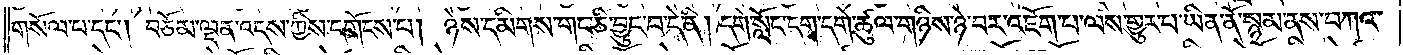གསོལ་པ་དང༌། བཅོམ་ལྡན་འདས་ཀྱིས་དགོངས་པ། ཉེས་དམིགས་གང་ཅི་བྱུང་བ་དེ་ནི། དགེ་སློང་དག་དགེ་ཚུལ་གཉིས་ཉེ་བར་འཇོག་པ་ལས་གྱུར་པ་ཡིན་ནོ་སྙམ་ནས་བཀའ་
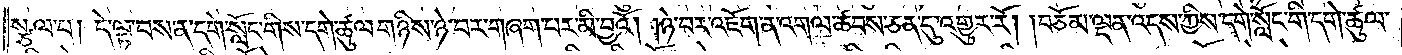སྩལ་པ། དེ་ལྟ་བས་ན་དགེ་སློང་གིས་དགེ་ཚུལ་གཉིས་ཉེ་བར་གཞག་པར་མི་བྱའོ། །ཉེ་བར་འཇོག་ན་འགལ་ཚབས་ཅན་དུ་འགྱུར་རོ། །བཅོམ་ལྡན་འདས་ཀྱིས་དགེ་སློང་གི་དགེ་ཚུལ་
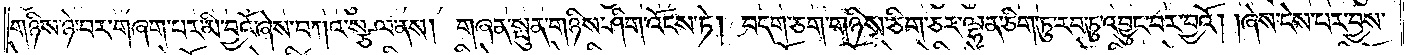གཉིས་ཉེ་བར་གཞག་པར་མི་བྱའོ་ཞེས་བཀའ་སྩལ་ནས། གཞན་སྤུན་གཉིས་ཤིག་འོངས་ཏེ། བདག་ཅག་གཉིས་ཅིག་ཅར་ལྷན་ཅིག་ཏུ་རབ་ཏུ་འབྱུང་བར་བྱའོ། །ཞེས་ངེས་པར་བྱས་
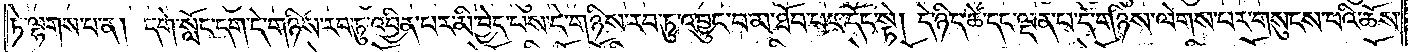ཏེ་ལྷགས་པ་ན། དགེ་སློང་དག་དེ་གཉིས་རབ་ཏུ་འབྱིན་པར་མི་བྱེད་པས་དེ་གཉིས་རབ་ཏུ་འབྱུང་བ་མ་ཐོབ་པར་དོང་སྟེ། དེ་ཉིད་ཚེ་དང་ལྡན་པ་དེ་གཉིས་ལེགས་པར་གསུངས་པའི་ཆོས་
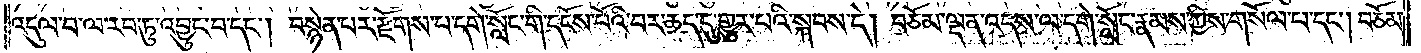འདུལ་བ་ལ་རབ་ཏུ་འབྱུང་བ་དང༌། བསྙེན་པར་རྫོགས་པ་དགེ་སློང་གི་དངོས་པོའི་བར་ཆད་དུ་གྱུར་པའི་སྐབས་དེ། བཅོམ་ལྡན་འདས་ལ་དགེ་སློང་རྣམས་ཀྱིས་གསོལ་པ་དང༌། བཅོམ་
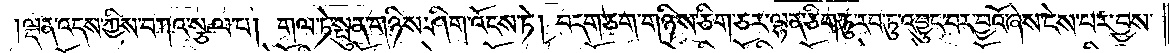ལྡན་འདས་ཀྱིས་བཀའ་སྩལ་པ། གལ་ཏེ་སྤུན་གཉིས་ཤིག་འོངས་ཏེ། བདག་ཅག་གཉིས་ཅིག་ཅར་ལྷན་ཅིག་ཏུ་རབ་ཏུ་འབྱུང་བར་བྱའོ་ཞེས་ངེས་པར་བྱས་
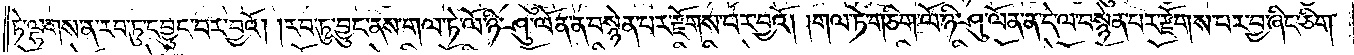ཏེ་ལྷགས་ན་རབ་ཏུ་དབྱུང་བར་བྱའོ། །རབ་ཏུ་བྱུང་ནས་གལ་ཏེ་ལོ་ཉི་ཤུ་ལོན་ན་བསྙེན་པར་རྫོགས་པར་བྱའོ། །གལ་ཏེ་གཅིག་ལོ་ཉི་ཤུ་ལོན་ན་དེ་ལ་བསྙེན་པར་རྫོགས་པར་བྱ་ཞིང་ཅིག་
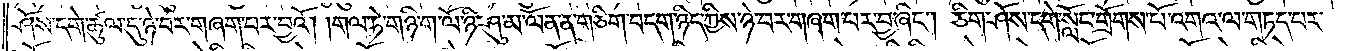ཤོས་དགེ་ཚུལ་དུ་ཉེ་བར་གཞག་པར་བྱའོ། །གལ་ཏེ་གཉི་ག་ལོ་ཉི་ཤུ་མ་ལོན་ན་གཅིག་བདག་ཉིད་ཀྱིས་ཉེ་བར་གཞག་པར་བྱ་ཞིང༌། ཅིག་ཤོས་དགེ་སློང་གྲོགས་པོ་འགའ་ལ་གཏད་པར་
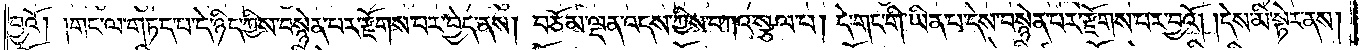བྱའོ། །གང་ལ་གཏད་པ་དེ་ཉིད་ཀྱིས་བསྙེན་པར་རྫོགས་པར་བྱེད་ནས། བཅོམ་ལྡན་འདས་ཀྱིས་བཀའ་སྩལ་པ། དེ་གང་གི་ཡིན་པ་དེས་བསྙེན་པར་རྫོགས་པར་བྱའོ། །དེས་མི་སྟེར་ནས།
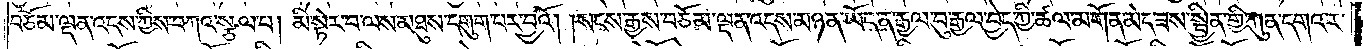བཅོམ་ལྡན་འདས་ཀྱིས་བཀའ་སྩལ་པ། མི་སྟེར་བ་ལས་མཐུས་དགུག་པར་བྱའོ། །སངས་རྒྱས་བཅོམ་ལྡན་འདས་མཉན་ཡོད་ན་རྒྱལ་བུ་རྒྱལ་བྱེད་ཀྱི་ཚལ་མགོན་མེད་ཟས་སྦྱིན་གྱི་ཀུན་དགའ་ར་
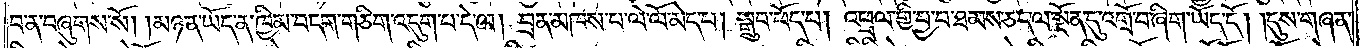བ་ན་བཞུགས་སོ། །མཉན་ཡོད་ན་ཁྱིམ་བདག་གཅིག་འདུག་པ་དེ་ལ། བྲན་མཁས་པ་ལེ་ལོ་མེད་པ། སྒྲུབ་ཕོད་པ། འཕྲལ་གྱི་བྱ་བ་ཐམས་ཅད་ལ་སྔོན་དུ་འགྲོ་བ་ཞིག་ཡོད་དོ། །དུས་གཞན་
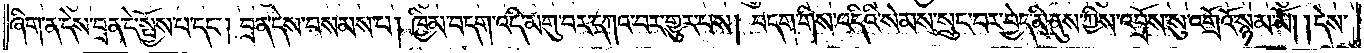ཞིག་ན་དེས་བྲན་དེ་སྤྱོས་པ་དང༌། བྲན་དེས་བསམས་པ། ཁྱིམ་བདག་འདི་མགུ་བར་དཀའ་བར་གྱུར་པས། བདག་གིས་འདིའི་སེམས་སྲུང་བར་བྱེད་མི་ནུས་ཀྱིས་འབྲོས་སུ་འགྲོའོ་སྙམ་མོ། །དེས་
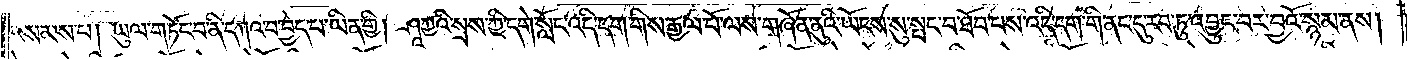བསམས་པ། ཡུལ་གཏོང་བ་ནི་དཀའ་བ་བྱེད་པ་ཡིན་གྱི། ཤཱཀྱའི་སྲས་ཀྱི་དགེ་སློང་འདི་དག་གིས་རྒྱལ་པོ་ལས་གཞོན་ནུའི་ཡོངས་སུ་སྤང་བ་ཐོབ་པས་འདི་དག་གི་ནང་དུ་རབ་ཏུ་འབྱུང་བར་བྱའོ་སྙམ་ནས།
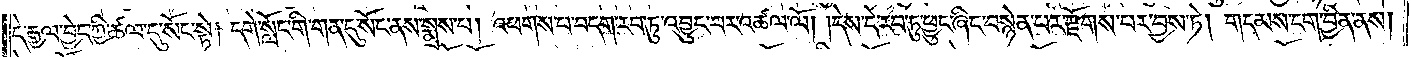དེ་རྒྱལ་བྱེད་ཀྱི་ཚལ་དུ་སོང་སྟེ། དགེ་སློང་གི་གན་དུ་སོང་ནས་སྨྲས་པ། འཕགས་པ་བདག་རབ་ཏུ་འབྱུང་བར་འཚལ་ལོ། །དེས་དེ་རབ་ཏུ་ཕྱུང་ཞིང་བསྙེན་པར་རྫོགས་པར་བྱས་ཏེ། གདམས་ངག་བྱིན་ནས།
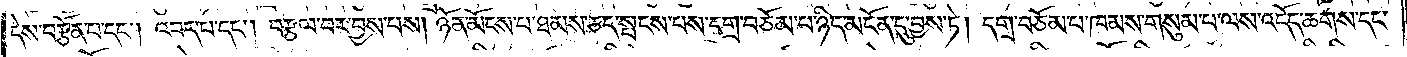དེས་བརྩོན་པ་དང༌། འབད་པ་དང༌། བརྩལ་བར་བྱས་པས། ཉོན་མོངས་པ་ཐམས་ཅད་སྤངས་པས་དགྲ་བཅོམ་པ་ཉིད་མངོན་དུ་བྱས་ཏེ། དགྲ་བཅོམ་པ་ཁམས་གསུམ་པ་ལས་འདོད་ཆགས་དང་
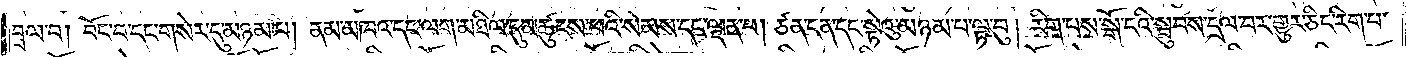བྲལ་བ། བོང་བ་དང་གསེར་དུ་མཉམ་པ། ནམ་མཁའ་དང་ལག་མཐིལ་དུ་མཚུངས་པའི་སེམས་དང་ལྡན་པ། ཙན་དན་དང་སྟེའུ་མཉམ་པ་ལྟ་བུ། རིག་པས་སྒོ་ངའི་སྦུབས་དྲལ་བར་གྱུར་ཅིང་རིག་པ་
